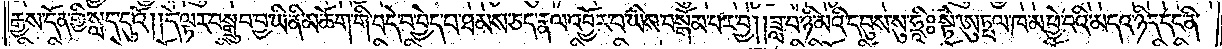རྒྱས་དོན་གྱི་སླད་དུའོ། །དེ་ལྟར་བསྒྲུབ་བྱ་ཡི་ནི་མཆོག་གི་བདེ་བ་བྱེད་པ་ཐམས་ཅད་རྣལ་འབྱོར་པ་ཡིས་བསྒོམ་པར་བྱ། །ཟླ་བ་ཉི་མའི་དབུས་སུ་ཧྲཱིཿསྟེ་ཨུཏྤལ་ཁ་མ་ཕྱེ་བའི་མདའ་ཉིད་དང་ནི་
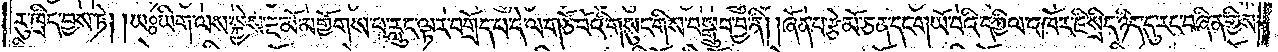རུ་ཁྲིད་བྱས་ཏེ། །ཡཿཡིག་ལས་སྐྱེས་རྔ་མོ་མགྱོགས་པ་རླུང་ལྟར་བགྲོད་པ་དེ་ལ་གཙོ་བོའི་གསུང་གིས་བསྒྲུབ་བྱ་ནི། །ཞོན་པ་རྩེ་མོ་ཅན་དང་གཡོ་བའི་དཀྱིལ་འཁོར་ཇི་སྲིད་ཉིད་དུ་རང་བཞིན་གྱིས་
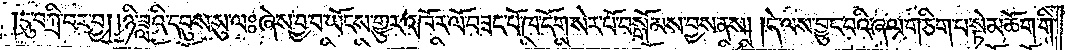དུ་བཀྲི་བར་བྱ། །ཉི་ཟླའི་དབུས་སུ་ལཿཞེས་བྱ་བ་ཡོངས་གྱུར་འཁོར་ལོ་བཟང་པོ་ཁ་དོག་སེར་པོ་བསྒོམས་བྱས་ནས། །དེ་ལས་བྱུང་བའི་ཞལ་གཅིག་པ་སྟེ་མཆོག་གི་
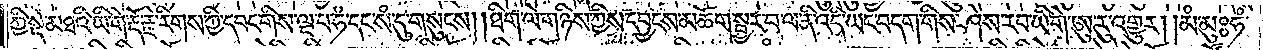ཀྱི་སྡེ་མཐའི་ཡི་གེ་རྡོ་རྗེ་རིགས་ཀྱི་དབང་གིས་ལྔ་པ་ཧཱཾ་དང་སཾ་དུ་གསུངས། །ཐིག་ལེ་གཉིས་ཀྱིས་དབྱངས་མཆོག་སྦྱར་བ་ལ་ནི་འདི་ཡང་བདག་གིས་ཤེས་རབ་ཡི་གེ་ཨུ་རུ་འགྱུར། །མཾ་མུཿཧཾ་
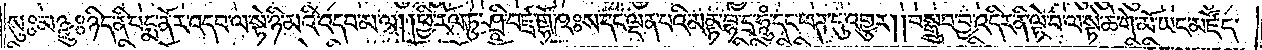སུཿམཉྫུཿཉིད་ནི་པདྨ་ནོར་འདབ་ལ་སྟེ་ཉི་མའི་འདབ་མ་ལ། །ཕྱི་རོལ་ཏུ་ཤྲཱི་བཛྲ་གྷོ་ཥཿས་དང་ལྡན་པའི་མནྟ་བྷ་དྲ་ཧཱུཾ་དང་ཕཊ་དུ་འགྱུར། །བསྒྲུབ་བྱ་འདིར་ནི་ལྟེ་བ་ལ་སྟེ་ཆེ་གེ་མོ་ཡང་མཛོད་
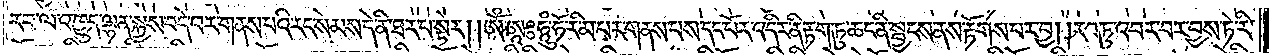རབ་ལ་འཁྱུད་ལྷན་སྐྱེས་བདེ་བར་གནས་པའི་རང་སེམས་དེ་ནི་ཐར་པ་སྟེར། །ཨོཾ་ཨཱཿཧཱུཾ་ཧོ་རིམ་པར་གནས་པས་དང་པོར་འདིར་ནི་རྟག་ཏུ་ཆང་ནི་སྦྱངས་ནས་རྟོགས་པར་བྱ། །རབ་ཏུ་འབར་བར་བྱས་ཏེ་རི་
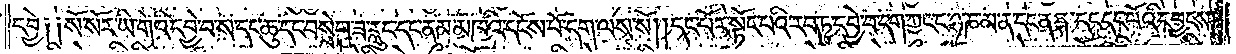དབྱེ། །སོ་སོར་ཡི་གེའི་དབྱེ་བ་ལ་ས་དང་ཆུ་དང་བསྲེག་ཟ་རླུང་དང་ནམ་མཁའི་དངོས་པོ་དག་ལས་སོ། །དང་པོར་སྟོང་པའི་རབ་ཏུ་དབྱེ་བ་དག་ཀྱང་ང་ཉ་ཎ་མ་ན་དང་ན་ྈྐ་དང་དང་པོའི་དབྱངས༎
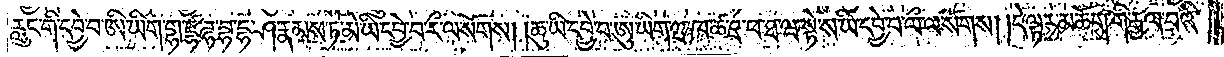རླུང་གི་དབྱེ་བ་ཨི་ཡིག་གྷ་ཛྷ་ཌྷ་བྷ་དྷ་ཤ་རྣམས་ཏེ་མེ་ཡི་དབྱེ་བ་རྀ་ལ་སོགས། །ཆུ་ཡི་དབྱེ་བ་ཨུ་ཡིག་ྉྤ་ཁ་ཚ་ཋ་ཕ་ཐ་ཝ་སྟེ་ས་ཡི་དབྱེ་བ་ལྀ་ལ་སོགས། །དེ་ལྟར་མཆོག་གི་རྒྱལ་བའི་
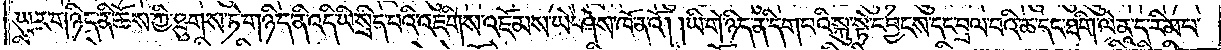ཡུར་གཉིད་ནི་ཆོས་ཀྱི་ཐུགས་ཏེ་གཉིད་ནི་འདི་ཡི་སྲིད་པའི་འཇིགས་འཇོམས་ཡེ་ཤེས་ཁོ་ནའོ། །ཡི་གེ་ཉིད་ནི་དག་བའི་སྐུ་སྟེ་དབྱངས་དང་བྲལ་བའི་ཆ་དང་ཐག་ིལེ་ནཱ་ད་རིམ་པ་
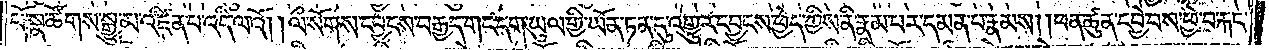པོ་སྣ་ཚོགས་སྒྱུ་མ་འཛིན་པ་འདི་ལའོ། །ལྀ་སོགས་དབྱངས་བརྒྱད་གང་དག་ཡུལ་གྱི་ཡོན་ཏན་དུ་འགྱུར་དབྱངས་ཕྱེད་ཀྱིས་ནི་རྣམ་པར་དམན་པ་རྣམས། །ཕན་ཚུན་དབྱེ་བས་ཕྱེ་བ་རྐང་
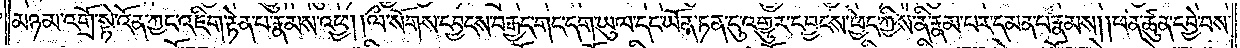མཉམ་འགྲོ་སྟེ་འོན་ཀྱང་འཇིག་རྟེན་པ་རྣམས་འཕྱ། །ལྀ་སོགས་དབྱངས་བརྒྱད་གང་དག་ཡུལ་དང་ཡོན་ཏན་དུ་འགྱུར་དབྱངས་ཕྱེད་ཀྱིས་ནི་རྣམ་པར་དམན་པ་རྣམས། །ཕན་ཚུན་དབྱེ་བས་
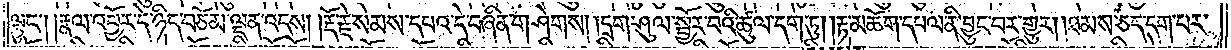ལྟུང་། །རྣམ་འབྱོར་དེ་ཉིད་བཅོམ་ལྡན་འདས། །རྡོ་རྗེ་སེམས་དཔའ་དེ་བཞིན་གཤེགས། །དྲག་ཤུལ་སྦྱོར་བའི་ཚུལ་དག་ཏུ། ྲ།རྟ་མཆོག་དཔལ་ནི་བྱུང་བར་གྱུར། །ཐམས་ཅད་དག་པར་
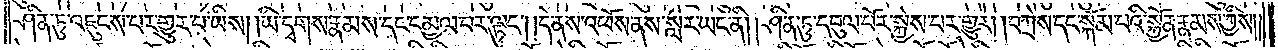ཤིན་ཏུ་འཇུངས་པར་གྱུར་པ་ཡིས། །ཡི་དྭགས་རྣམས་དང་དམྱལ་བར་ལྟུང། །དེ་ནས་འཕོས་ནས་སླར་ཡང་ནི། །ཤིན་ཏུ་དབུལ་པོར་སྐྱེས་པར་གྱུར། །བཀྲས་དང་སྐོམ་པའི་སྐྱོན་རྣམས་ཀྱིས། །
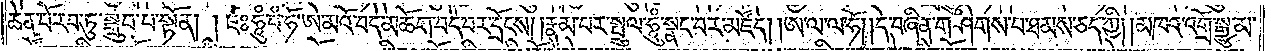ཆེན་པོ་རབ་ཏུ་སྒྲུབ་པ་སྟོན། །ཛཿ ཧཱུཾ་བཾ་ཧོ་ཨེ་མའོ་བདེ་མཆོག་བདེ་བར་དྲོངས། །རྣམ་པར་སྤྲུལ་ཧཱུཾ་སྣང་བར་མཛོད། །ཨ་ལ་ལ་ཧོ། །དེ་བཞིན་གཤེགས་པ་ཐམས་ཅད་ཀྱི། །མཁའ་འགྲོ་སྒྱུ་མ་
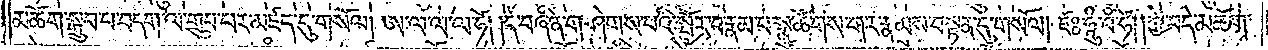མཆོག་སྒྲུབ་པ་བདག་ལ་གྲུབ་པར་མཛད་དུ་གསོལ། །ཨ་ལ་ལ་ལ་ཧོ། །དེ་བཞིན་གཤེགས་པའི་སྦྱོར་བ་རྣམ་པ་སྣ་ཚོགས་གར་རྣམས་བསྟན་དུ་གསོལ། །ཛཿཧཱུཾ་བཾ་ཧོ། །ཀྱེ་བདེ་མཆོག་
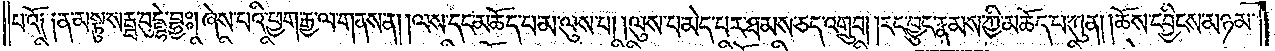པའོ༑ ༑ན་མསྟུ་སརྦྦ་བུདྡྷེ་བྷྱཿ། ཞེས་པའི་ཕྱག་རྒྱ་ལ་གནས་ན། །ལས་དང་མཆོད་པ་མ་ལུས་པ། །ལུས་པ་མེད་པར་ཐམས་ཅད་འགྲུབ། །རང་བྱུང་རྣམས་ཀྱི་མཆོད་པ་ཀུན། །ཆོས་དབྱིངས་མཉམ་
